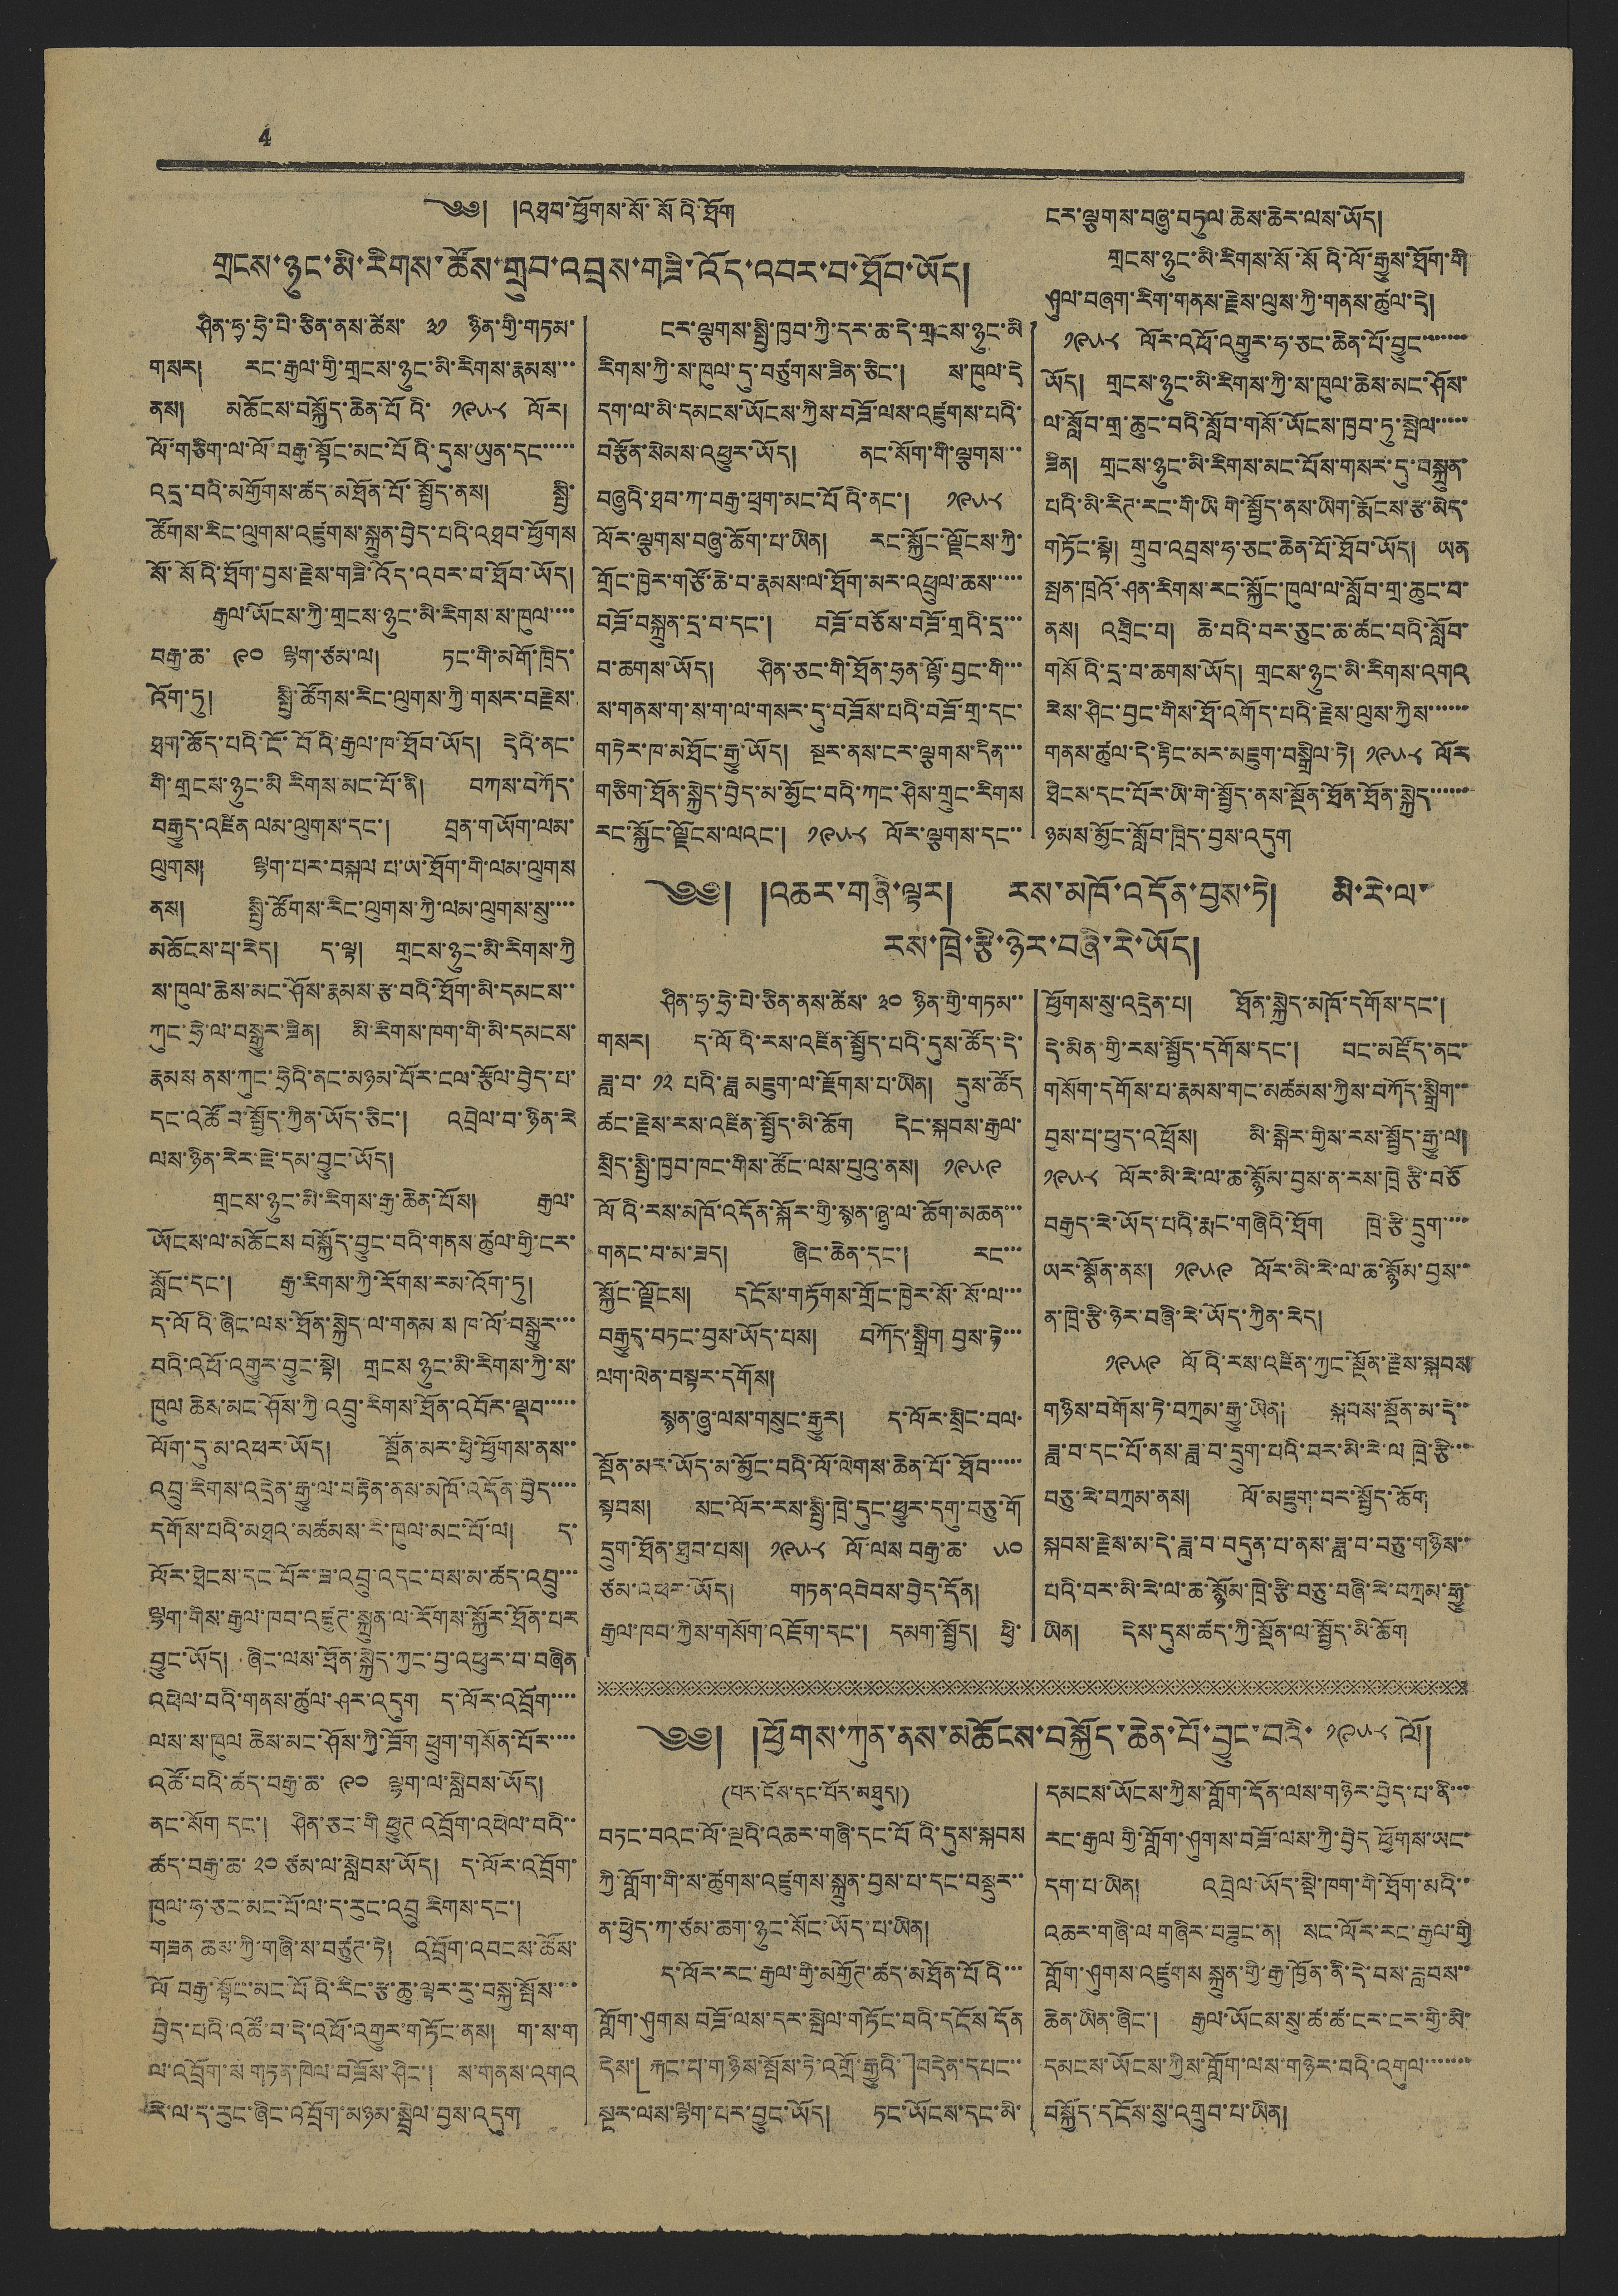4
༄༅། །འཐབ་ཕྱོགས་སོ་སོའི་ཐོག
གྲངས་ཉུང་མི་རིགས་ཚོས་གྲུབ་འབྲས་གཟི་འོད་འབར་བ་ཐོབ་ཡོད།
ཤིན་ཧྭ་ཧྲེ་པེ་ཅིན་ནས་ཚེས་ ༣༡ ཉིན་གྱི་གཏམ་
གསར། རང་རྒྱལ་གྱི་གྲངས་ཉུང་མི་རིགས་རྣམས་་་
ནས། མཆོངས་བསྐྱོད་ཆེན་པོའི་ ༡༩༥༨ ལོར།
ལོ་གཅིག་ལ་ལོ་བརྒྱ་སྟོང་མང་པོའི་དུས་ཡུན་དང་་་་་
འདྲ་བའི་མགྱོགས་ཚད་མཐོན་པོ་སྤྱོད་ནས། སྤྱི་
ཚོགས་རིང་ལུགས་འཛུགས་སྐྲུན་བྱེད་པའི་འཐབ་ཕྱོགས
སོ་སོའི་ཐོག་བྱས་རྗེས་གཟི་འོད་འབར་བ་ཐོབ་ཡོད།
རྒྱལ་ཡོངས་ཀྱི་གྲངས་ཉུང་མི་རིགས་ས་ཁུལ་་་་
བརྒྱ་ཆ་ ༩༠ ལྷག་ཙམ་ལ། ཏང་གི་མགོ་ཁྲིད་
འོག་ཏུ། སྤྱི་ཚོགས་རིང་ལུགས་ཀྱི་གསར་བརྗེས་
ཐག་ཆོད་པའི་ངོ་བོའི་རྒྱལ་ཁ་ཐོབ་ཡོད། དེའི་ནང་
གི་གྲངས་ཉུང་མི རིགས་མང་པོ་ནི། བཀས་བཀོད་
བརྒྱུད་འཛིན་ལམ་ལུགས་དང་། བྲན་གཡོག་ལམ་
ལུགས། ལྷག་པར་བསྐལ པ་ཡ་ཐོག་གི་ལམ་ལུགས
ནས། སྤྱི་ཚོགས་རིང་ལུགས་ཀྱི་ལམ་ལུགས་སུ་་་
མཆོངས་པ་རེད། ད་ལྟ། གྲངས་ཉུང་མི་རིགས་ཀྱི
ས་ཁུལ་ཆེས་མང་ཤོས་རྣམས་རྩ་བའི་ཐོག་མི་དམངས་་
ཀུང་ཧྲེ་ལ་བསྒྱུར་ཟིན། མི་རིགས་ཁག་གི་མི་དམངས་
རྣམས ནས་ཀུང་ཧྲེའི་ནང་མཉམ་པོར་ངལ་རྩོལ་བྱེད་པ་
དང་འཚོབ་སྤྱོད་ཀྱིན་ཡོད་ཅིང་། འབྲེལ་བ་ཉིན་རེ
ལས་ཉིན་རེར་ཇེ་དམ་བྱུང་ཡོད།
གྲངས་ཉུང་མི་རིགས་རྒྱ་ཆེན་པོས། རྒྱལ་
ཡོངས་ལ་མཆོངས བསྐྱོད་བྱུང་བའི་གནས་ཚུལ་གྱི་ངར་
སློང་དང་། རྒྱ་རིགས་ཀྱི་རོགས་རམ་འོག་ཏུ།
ད་ལོའི་ཞིང་ལས་ཐོན་སྐྱེད་ལ་གནམ་ས ཁ་ལོ་བསྒྱུར་་་
བའི་འཕོ་འགྱུར་བྱུང་སྟེ། གྲངས ཉུང་མི་རིགས་ཀྱི་ས་
ཁུལ ཆེས་མང་ཤོས་ཀྱི་འབྲུ་རིགས་ཐོན་འབོར་ལྡབ་་་་་
ལོག་དུ་མ་འཕར་ཡོད། སྔོན་མར་ཕྱི་ཕྱོགས་ནས་་
འབྲུ་རིགས་འདྲེན་རྒྱུ་ལ་བརྟེན་ནས་མཁོ་འདོན་བྱེད་་་་་
དགོས་པའི་མཐའ་མཚམས་རི་ཁུལ་མང་པོ་ལ། ད་
ལོར་ཐེངས་དང་པོར་ཟ་འབྲུ་འདང་བས་མ་ཚད་འབྲུ་་་
ལྷག་གིས་རྒྱལ་ཁབ་འཛུཊ་སྐྲུན་ལ་རོགས་སྐྱོར་ཐོན་པར
བྱུང་ཡོད། ཞིང་ལས་ཐོན་སྐྱེད་ཀྱང་བྱ་འཕུར་བ་བཞིན
འཕེལ་བའི་གནས་ཚུལ་ཤར་འདུག ད་ལོར་འབྲོག་་་་
ལས་ས་ཁུལ ཆེས་མང་ཤོས་ཀྱི་ཟོག ཕྲུག་གསོན་པོར་་་་
འཚོ་བའི་ཚད་བརྒྱ་ཆ་ ༩༠ ལྷག་ལ་སླེབས་ཡོད།
ནང་སོག དང་། ཤིན་ཅང་གི ཕྱུཊ འབྲོག་འཕེལ་བའི་་
ཚད་བརྒྱ་ཆ་ ༢༠ ཙམ་ལ་སླེབས་ཡོད། ད་ལོར་འབྲོག་
ཁུལ་ཧ་ཅང་མང་པོ་ལ་ད་རུང་འབྲུ རིགས་དང་།
གཟན ཆས་ཀྱི་གཞི་ས་བཙུཊ་ཏེ། འབྲོག་འབངས་ཚོས་
ལོ བརྒྱ་སྟོང་མང་པོའི་རིང་རྩ་ཆུ་ལྟར་རུ་བརྒྱ་སྤོས་་་་
བྱེད་པའི་འཚོ་བ་དེ་འཕོ་འགྱུར་གཏོང་ནས། ག་ས་ག
ལ་འབྲོག་ས གཏན་ཁེལ་བཟོས་ཤིང་། ས་གནས་འགའ
རི་ལ་ད་རུང་ཞིང་འབྲོག་མཉམ་སྦྲེལ་བྱས་འདུག
ངར་ལྕགས་སྤྱི་ཁྱབ་ཀྱི་དར་ཆ་དེ་གྲངས་ཉུང་མི
རིགས་ཀྱི་ས་ཁུལ་དུ་བཙུགས་ཟིན་ཅིང་། ས་ཁུལ་དེ
དག་ལ་མི་དམངས་ཡོངས་ཀྱིས་བཟོ་ལས་འཛུགས་པའི་
བརྩོན་སེམས་འཕྱུར་ཡོད། ནང་སོག་གི་ལྕགས་་་
བཞུའི་ཐབ་ཀ་བརྒྱ་ཕྲག་མང་པོའི་ནང་། ༡༩༥༨
ལོར་ལྕགས་བཞུ་ཆོག་པ་ཡིན། རང་སྐྱོང་ལྗོངས་ཀྱི་
གྲོང་ཁྱེར་གཙོ་ཆེ་བ་རྣམས་ལ་ཐོག་མར་འཕྲུལ་ཆས་་་་་
བཟོ་བསྐྲུན་དྲ་བ་དང་། བཟོ་བཅོས་བཟོ་གྲའི་དྲ་་་
བ་ཆགས་ཡོད། ཤིན་ཅང་གི་ཐོན་ཧྲན་ལྷོ་བྱང་གི་་་
ས་གནས་ག་ས་ག་ལ་གསར་དུ་བཟོས་པའི་བཟོ་གྲ་དང་
གཏེར་ཁ་མཐོང་རྒྱུ་ཡོད། སྔར་ནས་ངར་ལྕགས་དིན་་་
གཅིག་ཐོན་སྐྱེད་བྱེད་མ་མྱོང་བའི་ཀང་ཤིས་གྲུང་རིགས
རང་སྐྱོང་ལྗོངས་ལའང་། ༡༩༥༨ ལོར་ལྕགས་དང་་
ངར་ལྕགས་བཞུ་བཏུལ་ཆེས་ཆེར་ལས་ཡོད།
གྲངས་ཉུང་མི་རིགས་སོ་སོའི་ལོ་རྒྱུས་ཐོག་གི
ཤུལ་བཞག་རིག་གནས་རྗེས་ལུས་ཀྱི་གནས་ཚུལ་དེ།
༡༩༥༨ ལོར་འཕོ་འགྱུར་ཧ་ཅང་ཆེན་པོ་བྱུང་་་་་་
ཡོད། གྲངས་ཉུང་མི་རིགས་ཀྱི་ས་ཁུལ་ཆེས་མང་ཤོས་
ལ་སློབ་གྲ་ཆུང་བའི་སློབ་གསོ་ཡོངས་ཁྱབ་ཏུ་སྤེལ་་་་་
ཟིན། གྲངས་ཉུང་མི་རིགས་མང་པོས་གསར་དུ་བསྐྲུན་
པའི་མི་རིཊ་རང་གི་ཡི གེ་སྤྱོད་ནས་ཡིག་རྨོངས་རྩ་མེད་
གཏོང་སྟེ། གྲུབ་འབྲས་ཧ་ཅང་ཆེན་པོ་ཐོབ་ཡོད། ཡན
སྤན་ཁྲའོ་ཤན་རིགས་རང་སྐྱོང་ཁུལ་ལ་སློབ་གྲ་ཆུང་བ་
ནས། འབྲིང་བ། ཆེ་བའི་བར་ཅུང་ཆ་ཚང་བའི་སློབ་
གསོའི་དྲ་བ་ཆགས་ཡོད། གྲངས་ཉུང་མི་རིགས་འགའ
རེས་ཤིང་བྱང་གིས་ཐོ་འགོད་པའི་རྗེས་ལུས་ཀྱིས་་་་་་
གནས་ཚུལ་དེ་རྟིང་མར་མཇུག་བསྒྲིལ་ཏེ། ༡༩༥༨ ལོར་
ཐེངས་དང་པོར་ཡི་གེ་སྤྱོད་ནས་སྔོན་ཐོན་ཐོན་སྐྱེད་་་་་
ཉམས་མྱོང་སློབ་ཁྲིད་བྱས་འདུག
༄༅། །འཆར་གཞི་ལྟར། རས་མཁོ་འདོན་བྱས་ཏེ། མི་རེ་ལ་
རས་ཁྲེ་རྩི་ཉེར་བཞི་རེ་ཡོད།
ཤིན་ཧྭ་ཧྲེ་པེ་ཅིན་ནས་ཚེས་ ༣༠ ཉིན་གྱི་གཏམ་་
གསར། ད་ལོའི་རས་འཛིན་སྤྱོད་པའི་དུས་ཚོད་དེ་
ཟླ་བ་ ༡༢ པའི་ཟླ མཇུག་ལ་རྫོགས་པ་ཡིན། དུས་ཚོད
ཚང་རྗེས་རས་འཛིན་སྤྱོད་མི་ཆོག དེང་སྐབས་རྒྱལ་
སྲིད་སྤྱི་ཁྱབ་ཁང་གིས་ཚོང་ལས་པུའུ་ནས། ༡༩༥༩
ལོའི་རས་མཁོ་འདོན་སྐོར་གྱི་སྙན་ཞུ་ལ་ཆོག་མཆན་་་
གནང་བ་མ་ཟད། ཞིང་ཆེན་དང་། རང་་་
སྐྱོང་ལྗོངས། དངོས་གཏོགས་གྲོང་ཁྱེར་སོ་སོ་ལ་་་
བརྒྱུད་བཏང་བྱས་ཡོད་པས། བཀོད་སྒྲིག་བྱས་ཏེ་་་
ལག་ལེན་བསྟར་དགོས།
སྙན་ཞུ་ལས་གསུང་རྒྱུར། ད་ལོར་སྲིང་བལ་
སྔོན་མར་ཡོད་མ་མྱོང་བའི་ལོ་ལེགས་ཆེན་པོ་ཐོབ་་་་་
སྟབས། སང་ལོར་རས་སྤྱི་ཁྲེ་དུང་ཕྱུར་དགུ་བཅུ་གོ
དྲུག་ཐོན་ཐུབ་པས། ༡༩༥༨ ལོ་ལས བརྒྱ་ཆ་ ༥༠
ཙམ་འཕར་ཡོད། གཏན་འབེབས་བྱེད་དོན།
རྒྱལ་ཁབ་ཀྱིས་གསོག་འཇོག་དང་། དམག་སྤྱོད། ཕྱི་
ཕྱོགས་སུ་འདྲེན་པ། ཐོན་སྐྱེད་མཁོ་དགོས་དང་།
དེ་མིན་གྱི་རས་སྤྱོད་དགོས་དང་། བང་མཛོད་ནང་
གསོག་དགོས་པ་རྣམས་གང་མཚམས་ཀྱིས་བཀོད་སྒྲིག་་
བྱས་པ་ཕུད་འཕྲོས། མི་སྒེར་གྱིས་རས་སྤྱོད་རྒྱུ་ལ།
༡༩༥༨ ལོར་མི་རེ་ལ་ཆ་སྙོམ་བྱས་ན་རས་ཁྲེ རྩི་བཅོ
བརྒྱད་རེ་ཡོད་པའི་རྨང་གཞིའི་ཐོག ཁྲེ་རྩི་དྲུག་་་་
ཡར་སྣོན་ནས། ༡༩༥༩ ལོར་མི་རེ་ལ་ཆ་སྙོམ་བྱས་་
ན་ཁྲེ་རྩི་ཉེར་བཞི་རེ་ཡོད་ཀྱིན་རེད།
༡༩༥༩ ལོའི་རས་འཛིན་ཀྱང་སྔོན་རྗེས་སྐབས
གཉིས་བགོས་ཏེ་བཀྲམ་རྒྱུ་ཡིན། སྐབས་སྔོན་མ་དེ་་
ཟླ་བ་དང་པོ་ནས་ཟླ་བ་དྲུག་པའི་བར་མི་རེ་ལ ཁྲེ་རྩི་་་་
བཅུ་རེ་བཀྲམ་ནས། ལོ་མཇུག་བར་སྤྱོད་ཆོག
སྐབས་རྗེས་མ་དེ་ཟླ་བ་བདུན་པ་ནས་ཟླ་བ་བཅུ་གཉིས་་
པའི་བར་མི་རེ་ལ་ཆ་སྙོམ་ཁྲེ་རྩི་བཅུ་བཞི་རེ་བཀྲམ་རྒྱུ་
ཡིན། དེས་དུས་ཚད་ཀྱི་སྔོན་ལ་སྤྱོད་མི་ཆོག
༄༅། །ཕྱོགས་ཀུན་ནས་མཆོངས་བསྐྱོད་ཆེན་པོ་བྱུང་བའི་ ༡༩༥༨ ལོ།
(པར་ངོས་དང་པོར་མཐུད།)
བཏང་བའང་ལོ་ལྔའི་འཆར་གཞི་དང་པོའི་དུས་སྐབས
ཀྱི་གློག་གི་ས་ཚུགས་འཛུགས་སྐྲུན་བྱས་པ་དང་བསྡུར་་
ན་ཕྱེད་ཀ་ཙམ་ཆག་ཉུང་སོང་ཡོད་པ་ཡིན།
ད་ལོར་རང་རྒྱལ་གྱི་མགྱོཊ་ཚད་མཐོན་པོའི་་་
གློག་ཤུགས བཟོ་ལས་དར་སྤེལ་གཏོང་བའི་དངོས དོན
དེས་「རྐང་པ་གཉིས་སྤོས་ཏེ་འགྲོ་རྒྱུའི་」བདེན་དཔང་་
སྔར་ལས་ལྷག་པར་བྱུང་ཡོད། ཏང་ཡོངས་དང་མི་
དམངས་ཡོངས་ཀྱིས་གློག་དོན་ལས་གཉེར་བྱེད་པ་ནི་་་
རང་རྒྱལ གྱི་གློག་ཤུགས་བཟོ་ལས་ཀྱི་བྱེད ཕྱོགས་ཡང་
དག་པ་ཡིན། འབྲེལ ཡོད་སྡེ་ཁག་གི་ཐོག་མའི་་
འཆར་གཞི་ལ གཞིར་བཟུང་ན། སང་ལོར་རང་རྒྱལ་གྱི་
གློག་ཤུགས་འཛུགས་སྐྲུན་གྱི་རྒྱ་ཁྱོན་ནི་དེ་བས་རླབས་་
ཆེན་ཡིན་ཞིང་། རྒྱལ་ཡོངས་སུ་ཚ་ཚ་ངར་ངར་གྱི་མི་
དམངས་ཡོངས་ཀྱིས་གློག་ལས་གཉེར་བའི་འགུལ་་་་་
བསྐྱོད་དངོས་སུ་འགྲུབ་པ་ཡིན།
